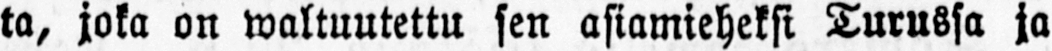ta, joka on waltuutettu sen asiamieheksi Turussa ja
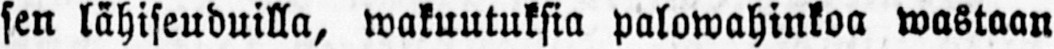sen lähiseuduilla, wakuutuksia palowahinkoa wastaan
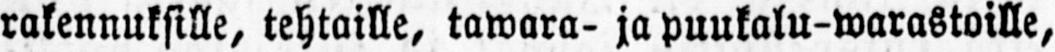rakennuksille, tehtaille, tawara- ja puukalu-warastoille,
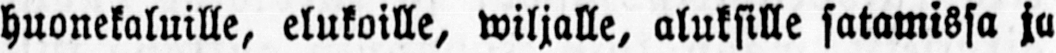huonekaluille, elukoille, wiljalle, aluksille satamissa ja
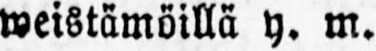weistämöillä y. m.
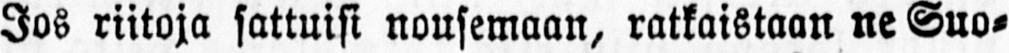Jos riitoja sattuisi nousemaan, ratkaistaan ne Suo-
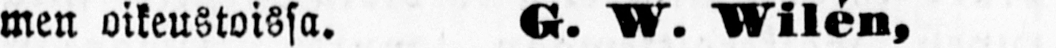men oikeustoissa. G. W. Wilén,
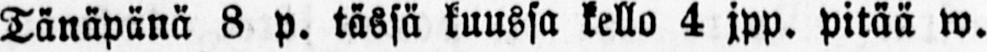Tänäpänä 8 p. tässä kuussa kello 4 jpp. pitää w.
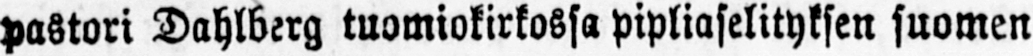pastori Dahlberg tuomiokirkossa pipliaselityksen suomen
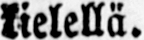kilellä.
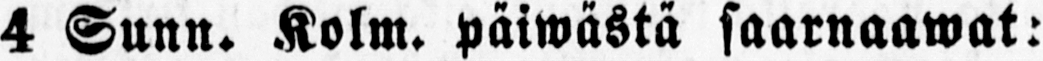4 Suun. Kolm. päiwä stä saarnaawat:
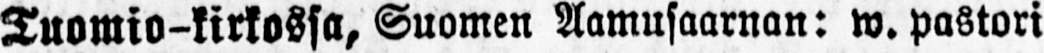Tuomio-kirkossa, Suomen Aamusaarnan: w. pastori
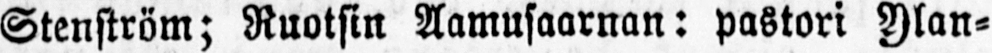Stenström; Ruotsin Aamusaarnan: pastori Ylan-
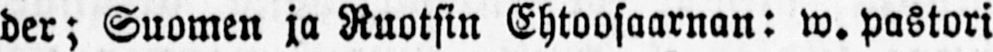der; Suomen ja Ruotsin Ehtoosaarnan: w. pastori
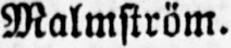Malmström.
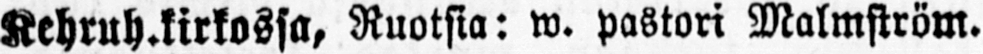Kehruh.kirkossa, Ruotsia: w. pastori Malmsström.
